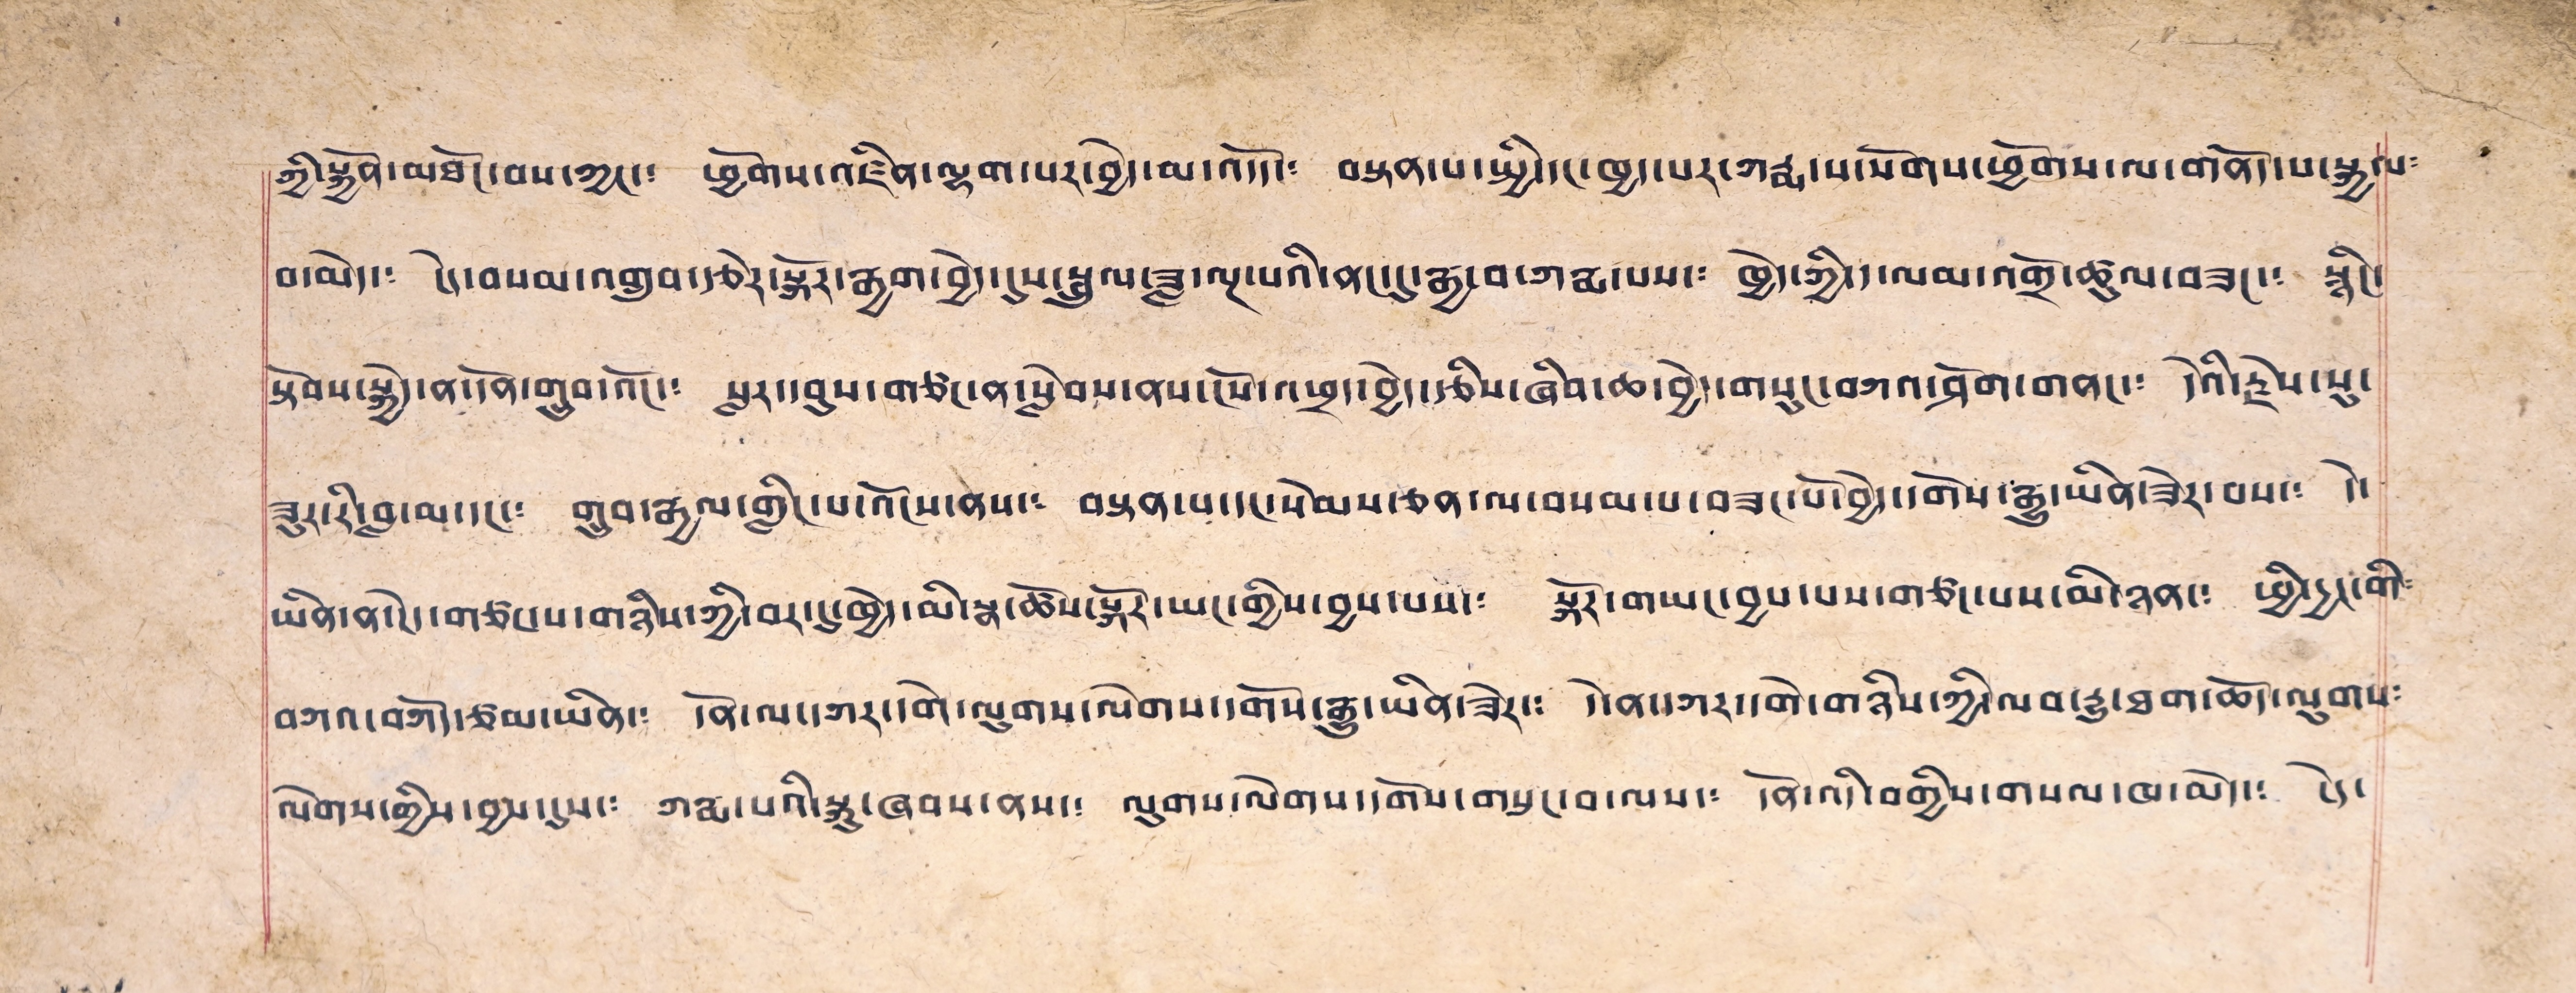ཀྱི་སྐྱོན་མཐོང་བས་ཀྱང་། ཕྱོགས་འཛིན་ལྷག་པར་བྱེད་མ་འདོད་། བསྟན་པ་སྤྱི་དང་ཁྱད་པར་ཀརྨ་པ་སོགས་ཕྱོགས་ལ་གནོད་པ་སྐྱལ་
བ་མེད་། ངེད་བསམ་འགྲུབ་རྩེར་སྐོར་རྒྱག་བྱེད་དུས་སྦྲུལ་ཟླ་ལྔ་པའི་ནང་དུ་རྒྱ་བ་ཀརྨ་པས་༴ ཁྱེད་ཀྱི་ད་ལམ་འགྲོ་ཚུལ་བཟང་། སྙིང་
སྟེབས་སྐྱེད་ན་དོན་གྲུབ་འོང་༴ སླར་དབུས་གཙང་ན་སླེབས་ནས་ངོས་འཕྲད་བྱེད་རྩིས་ཞིབ་ཆ་བྱེད་གསུང་བཀའ་ཤོག་གནང་༴ དེའི་རྗེས་སུ་
ཟུར་རི་བླ་མ་དང་། གྲུབ་རྒྱལ་གླིང་པ་འོངས་ནས་༴ བསྟན་པ་དང་སེམས་ཅན་ལ་བསམ་པ་བཟང་པོ་བྱེད་དགོས་རྒྱུ་ཡིན་ཟེར་བས་༴ དེ་
ཡིན་ན་ངེད་གཙང་པ་གཉིས་ཀྱི་བར་དུ་ཁྱེད་མི་སྣ་ཚོས་སྐོར་ཡང་གྱིས་བྱས་པས་༴ སྐོར་གཡང་བྱས་པས་གཙང་པས་མི་ཉན་༴ ཕྱི་དྱང་གི༴
བཀའ་བཀོད་ཙམ་ཡིན་༴ དོན་ལ་དཀར་དགེ་ལུགས་ལེགས་དགོས་རྒྱུ་ཡིན་ཟེར་༴ དེ་ནས་དཀར་དགེ་གཉིས་ཀྱི་ལབ་རྒྱུ་ཐག་ཆོད་ལུགས༴
ལེགས་གྱིས་བྱས་དུས་༴ ཀརྨ་པའི་སྐུ་ཞབས་ནས་༴ ལུགས་ལེགས་དགོས་གསུང་བ་ལས་༴ དོན་འདི་བགྱིས་གསལ་ཁ་མེད་༴ ངེད་
